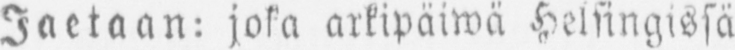Jaetaan: joka arkipäiwä Helsingissä
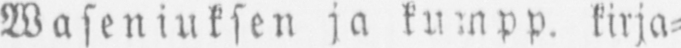Waseniuksen ja kumpp. kirja-
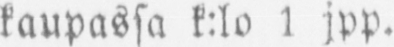kaupassa k:lo 1 jpp.
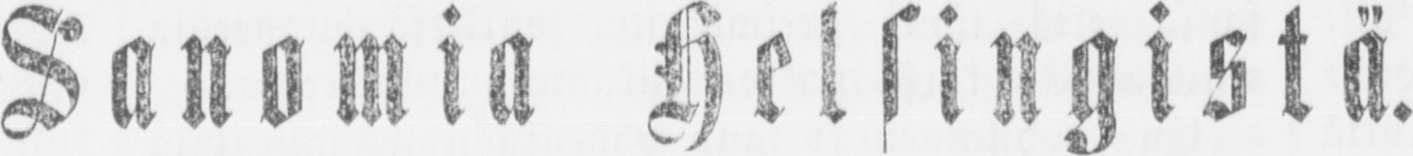Sanomia Helsingistä.
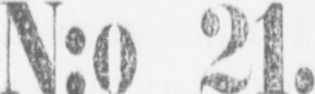N:o 21.
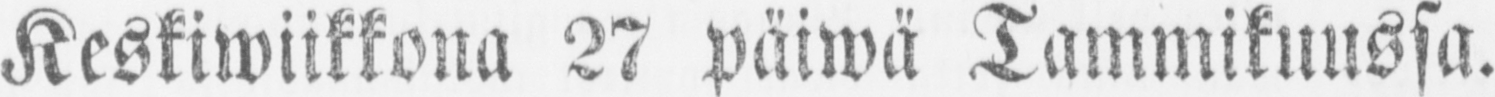Keskiwiikkona 27 päiwä Tammikuussa.
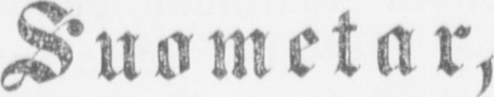Suometar,
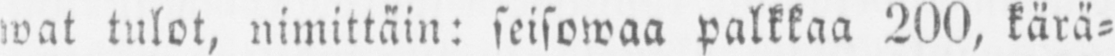wat tulot, nimittäin: seisowaa palkkaa 200, kärä-
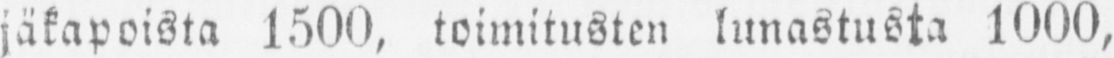jäkapoista 1500, toimitusten lunastusta 1000,
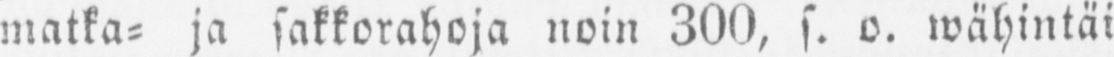matka- ja sakkorahoja noin 300, s. o. wähintäi
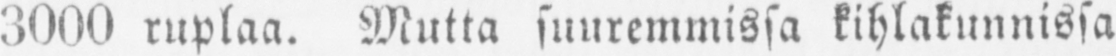3000 ruplaa. Mutta suuremmissa kihlakunnissa
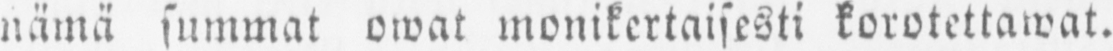nämä summat owat monikertaisesti korotettawat.
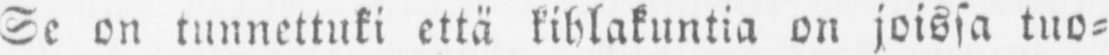Se on tunnettuki että kihlakuntia on joissa tuo-
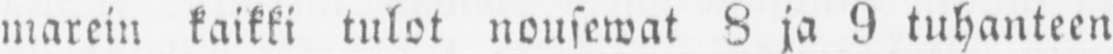marein kaikki tulot nousewat 8 ja 9 tuhanteen
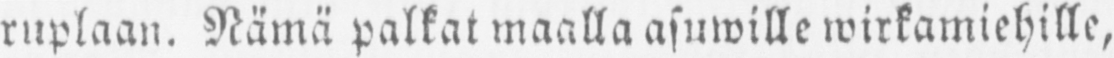ruplaan. Nämä palkat maalla asuwille wirkamiehille,
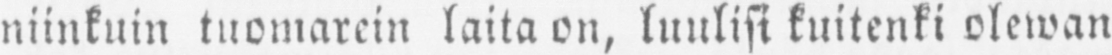niinkuin tuomarein laita on, luulisi kuitenki olewan
